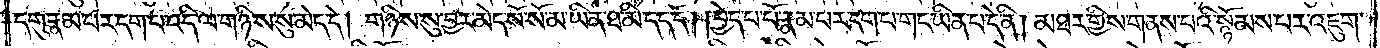དགུ་རྣམ་པར་དག་པ་འདི་ལ་གཉིས་སུ་མེད་དེ། གཉིས་སུ་བྱར་མེད་སོ་སོ་མ་ཡིན་ཐ་མི་དད་དོ། །བྱེད་པ་པོ་རྣམ་པར་དག་པ་གང་ཡིན་པ་དེ་ནི། མཐར་གྱིས་གནས་པའི་སྙོམས་པར་འཇུག་
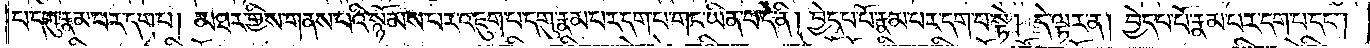པ་དགུ་རྣམ་པར་དག་པ། མཐར་གྱིས་གནས་པའི་སྙོམས་པར་འཇུག་པ་དགུ་རྣམ་པར་དག་པ་གང་ཡིན་པ་དེ་ནི། བྱེད་པ་པོ་རྣམ་པར་དག་པ་སྟེ། དེ་ལྟར་ན། བྱེད་པ་པོ་རྣམ་པར་དག་པ་དང༌།
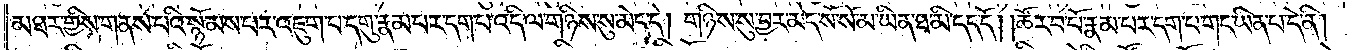མཐར་གྱིས་གནས་པའི་སྙོམས་པར་འཇུག་པ་དགུ་རྣམ་པར་དག་པ་འདི་ལ་གཉིས་སུ་མེད་དེ། གཉིས་སུ་བྱར་མེད་སོ་སོ་མ་ཡིན་ཐ་མི་དད་དོ། །ཚོར་བ་པོ་རྣམ་པར་དག་པ་གང་ཡིན་པ་དེ་ནི།
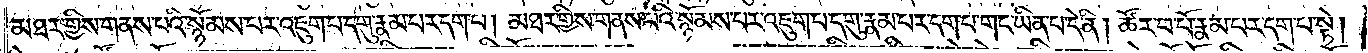མཐར་གྱིས་གནས་པའི་སྙོམས་པར་འཇུག་པ་དགུ་རྣམ་པར་དག་པ། མཐར་གྱིས་གནས་པའི་སྙོམས་པར་འཇུག་པ་དགུ་རྣམ་པར་དག་པ་གང་ཡིན་པ་དེ་ནི། ཚོར་བ་པོ་རྣམ་པར་དག་པ་སྟེ།
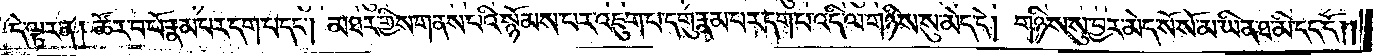དེ་ལྟར་ན། ཚོར་བ་པོ་རྣམ་པར་དག་པ་དང༌། མཐར་གྱིས་གནས་པའི་སྙོམས་པར་འཇུག་པ་དགུ་རྣམ་པར་དག་པ་འདི་ལ་གཉིས་སུ་མེད་དེ། གཉིས་སུ་བྱར་མེད་སོ་སོ་མ་ཡིན་ཐ་མི་དད་དོ། །
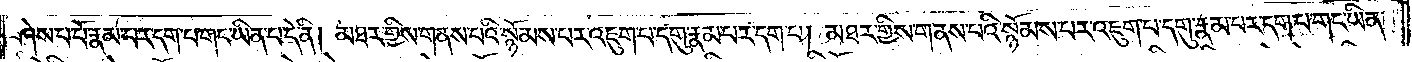ཤེས་པ་པོ་རྣམ་པར་དག་པ་གང་ཡིན་པ་དེ་ནི། མཐར་གྱིས་གནས་པའི་སྙོམས་པར་འཇུག་པ་དགུ་རྣམ་པར་དག་པ། མཐར་གྱིས་གནས་པའི་སྙོམས་པར་འཇུག་པ་དགུ་རྣམ་པར་དག་པ་གང་ཡིན་
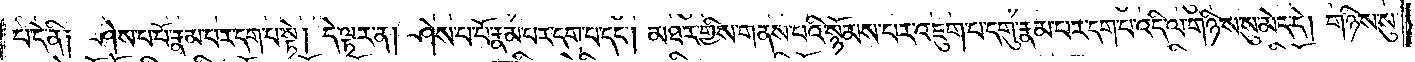པ་དེ་ནི། ཤེས་པ་པོ་རྣམ་པར་དག་པ་སྟེ། དེ་ལྟར་ན། ཤེས་པ་པོ་རྣམ་པར་དག་པ་དང༌། མཐར་གྱིས་གནས་པའི་སྙོམས་པར་འཇུག་པ་དགུ་རྣམ་པར་དག་པ་འདི་ལ་གཉིས་སུ་མེད་དེ། གཉིས་སུ་
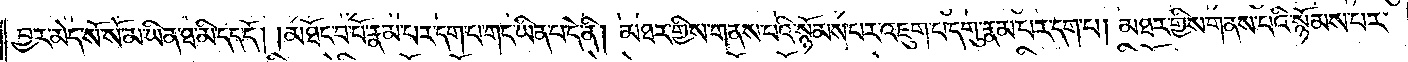བྱར་མེད་སོ་སོ་མ་ཡིན་ཐ་མི་དད་དོ། །མཐོང་བ་པོ་རྣམ་པར་དག་པ་གང་ཡིན་པ་དེ་ནི། མཐར་གྱིས་གནས་པའི་སྙོམས་པར་འཇུག་པ་དགུ་རྣམ་པར་དག་པ། མཐར་གྱིས་གནས་པའི་སྙོམས་པར་
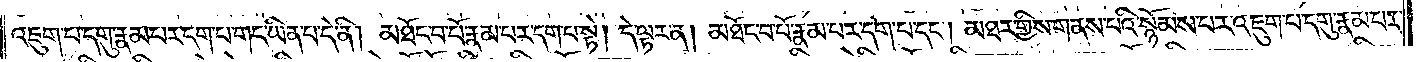འཇུག་པ་དགུ་རྣམ་པར་དག་པ་གང་ཡིན་པ་དེ་ནི། མཐོང་བ་པོ་རྣམ་པར་དག་པ་སྟེ། དེ་ལྟར་ན། མཐོང་བ་པོ་རྣམ་པར་དག་པ་དང༌། མཐར་གྱིས་གནས་པའི་སྙོམས་པར་འཇུག་པ་དགུ་རྣམ་པར་
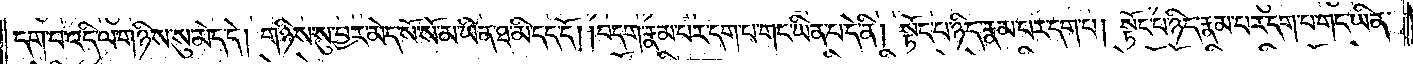དག་པ་འདི་ལ་གཉིས་སུ་མེད་དེ། གཉིས་སུ་བྱར་མེད་སོ་སོ་མ་ཡིན་ཐ་མི་དད་དོ། །བདག་རྣམ་པར་དག་པ་གང་ཡིན་པ་དེ་ནི། སྟོང་པ་ཉིད་རྣམ་པར་དག་པ། སྟོང་པ་ཉིད་རྣམ་པར་དག་པ་གང་ཡིན་
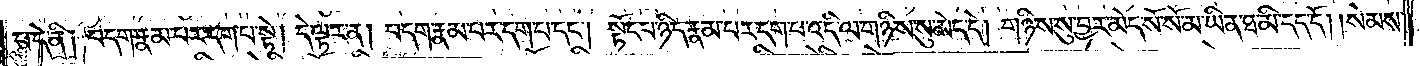པ་དེ་ནི། བདག་རྣམ་པར་དག་པ་སྟེ། དེ་ལྟར་ན། བདག་རྣམ་པར་དག་པ་དང༌། སྟོང་པ་ཉིད་རྣམ་པར་དག་པ་འདི་ལ་གཉིས་སུ་མེད་དེ། གཉིས་སུ་བྱར་མེད་སོ་སོ་མ་ཡིན་ཐ་མི་དད་དོ། །སེམས་
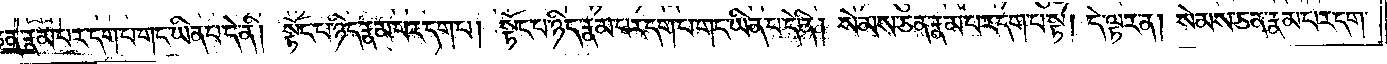ཅན་རྣམ་པར་དག་པ་གང་ཡིན་པ་དེ་ནི། སྟོང་པ་ཉིད་རྣམ་པར་དག་པ། སྟོང་པ་ཉིད་རྣམ་པར་དག་པ་གང་ཡིན་པ་དེ་ནི། སེམས་ཅན་རྣམ་པར་དག་པ་སྟེ། དེ་ལྟར་ན། སེམས་ཅན་རྣམ་པར་དག་
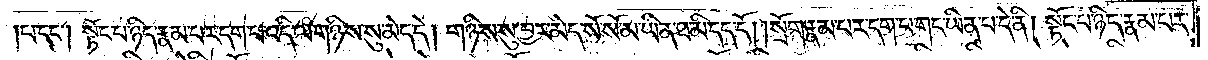པ་དང༌། སྟོང་པ་ཉིད་རྣམ་པར་དག་པ་འདི་ལ་གཉིས་སུ་མེད་དེ། གཉིས་སུ་བྱར་མེད་སོ་སོ་མ་ཡིན་ཐ་མི་དད་དོ། །སྲོག་རྣམ་པར་དག་པ་གང་ཡིན་པ་དེ་ནི། སྟོང་པ་ཉིད་རྣམ་པར་
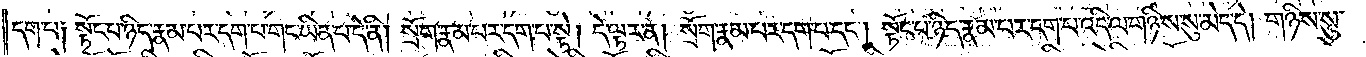དག་པ། སྟོང་པ་ཉིད་རྣམ་པར་དག་པ་གང་ཡིན་པ་དེ་ནི། སྲོག་རྣམ་པར་དག་པ་སྟེ། དེ་ལྟར་ན། སྲོག་རྣམ་པར་དག་པ་དང༌། སྟོང་པ་ཉིད་རྣམ་པར་དག་པ་འདི་ལ་གཉིས་སུ་མེད་དེ། གཉིས་སུ་
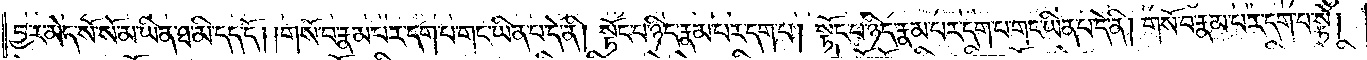བྱར་མེད་སོ་སོ་མ་ཡིན་ཐ་མི་དད་དོ། །གསོ་བ་རྣམ་པར་དག་པ་གང་ཡིན་པ་དེ་ནི། སྟོང་པ་ཉིད་རྣམ་པར་དག་པ། སྟོང་པ་ཉིད་རྣམ་པར་དག་པ་གང་ཡིན་པ་དེ་ནི། གསོ་བ་རྣམ་པར་དག་པ་སྟེ།
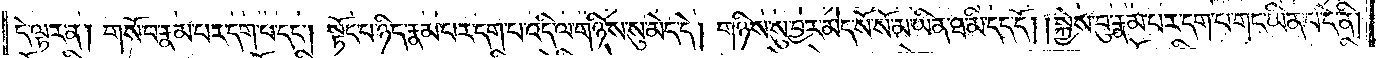དེ་ལྟར་ན། གསོ་བ་རྣམ་པར་དག་པ་དང༌། སྟོང་པ་ཉིད་རྣམ་པར་དག་པ་འདི་ལ་གཉིས་སུ་མེད་དེ། གཉིས་སུ་བྱར་མེད་སོ་སོ་མ་ཡིན་ཐ་མི་དད་དོ། །སྐྱེས་བུ་རྣམ་པར་དག་པ་གང་ཡིན་པ་དེ་ནི།
